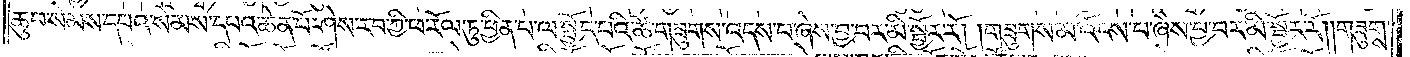ཆུབ་སེམས་དཔའ་སེམས་དཔའ་ཆེན་པོ་ཤེས་རབ་ཀྱི་ཕ་རོལ་ཏུ་ཕྱིན་པ་ལ་སྤྱོད་པའི་ཚེ་གཟུགས་འདས་པ་ཞེས་བྱ་བར་མི་སྦྱོར་རོ། །གཟུགས་མ་འོངས་པ་ཞེས་བྱ་བར་མི་སྦྱོར་རོ། །གཟུགས་
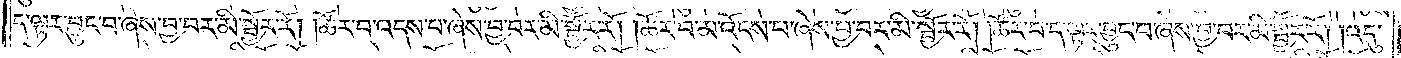ད་ལྟར་བྱུང་བ་ཞེས་བྱ་བར་མི་སྦྱོར་རོ། །ཚོར་བ་འདས་པ་ཞེས་བྱ་བར་མི་སྦྱོར་རོ། །ཚོར་བ་མ་འོངས་པ་ཞེས་བྱ་བར་མི་སྦྱོར་རོ། །ཚོར་བ་ད་ལྟར་བྱུང་བ་ཞེས་བྱ་བར་མི་སྦྱོར་རོ། །འདུ་
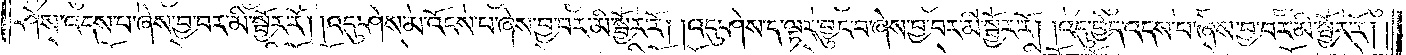ཤེས་འདས་པ་ཞེས་བྱ་བར་མི་སྦྱོར་རོ། །འདུ་ཤེས་མ་འོངས་པ་ཞེས་བྱ་བར་མི་སྦྱོར་རོ། །འདུ་ཤེས་ད་ལྟར་བྱུང་བ་ཞེས་བྱ་བར་མི་སྦྱོར་རོ། །འདུ་བྱེད་འདས་པ་ཞེས་བྱ་བར་མི་སྦྱོར་རོ། །
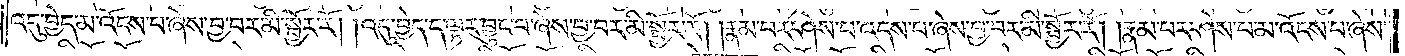འདུ་བྱེད་མ་འོངས་པ་ཞེས་བྱ་བར་མི་སྦྱོར་རོ། །འདུ་བྱེད་ད་ལྟར་བྱུང་བ་ཞེས་བྱ་བར་མི་སྦྱོར་རོ། །རྣམ་པར་ཤེས་པ་འདས་པ་ཞེས་བྱ་བར་མི་སྦྱོར་རོ། །རྣམ་པར་ཤེས་པ་མ་འོངས་པ་ཞེས་
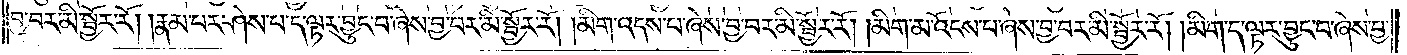བྱ་བར་མི་སྦྱོར་རོ། །རྣམ་པར་ཤེས་པ་ད་ལྟར་བྱུང་བ་ཞེས་བྱ་བར་མི་སྦྱོར་རོ། །མིག་འདས་པ་ཞེས་བྱ་བར་མི་སྦྱོར་རོ། །མིག་མ་འོངས་པ་ཞེས་བྱ་བར་མི་སྦྱོར་རོ། །མིག་ད་ལྟར་བྱུང་བ་ཞེས་བྱ་
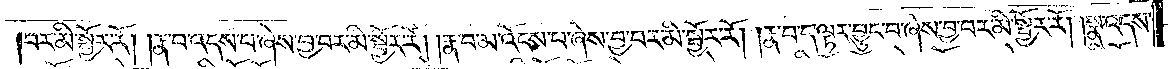བར་མི་སྦྱོར་རོ། །རྣ་བ་འདས་པ་ཞེས་བྱ་བར་མི་སྦྱོར་རོ། །རྣ་བ་མ་འོངས་པ་ཞེས་བྱ་བར་མི་སྦྱོར་རོ། །རྣ་བ་ད་ལྟར་བྱུང་བ་ཞེས་བྱ་བར་མི་སྦྱོར་རོ། །སྣ་འདས་
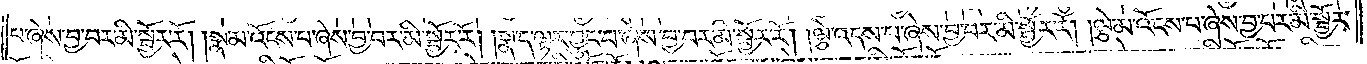པ་ཞེས་བྱ་བར་མི་སྦྱོར་རོ། །སྣ་མ་འོངས་པ་ཞེས་བྱ་བར་མི་སྦྱོར་རོ། །སྣ་ད་ལྟར་བྱུང་བ་ཞེས་བྱ་བར་མི་སྦྱོར་རོ། །ལྕེ་འདས་པ་ཞེས་བྱ་བར་མི་སྦྱོར་རོ། །ལྕེ་མ་འོངས་པ་ཞེས་བྱ་བར་མི་སྦྱོར་
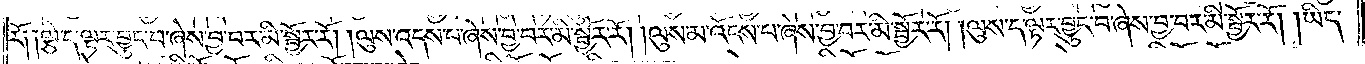རོ༑ ༑ལྕེ་ད་ལྟར་བྱུང་བ་ཞེས་བྱ་བར་མི་སྦྱོར་རོ། །ལུས་འདས་པ་ཞེས་བྱ་བར་མི་སྦྱོར་རོ། །ལུས་མ་འོངས་པ་ཞེས་བྱ་བར་མི་སྦྱོར་རོ། །ལུས་ད་ལྟར་བྱུང་བ་ཞེས་བྱ་བར་མི་སྦྱོར་རོ། །ཡིད་
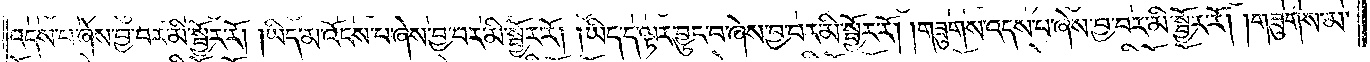འདས་པ་ཞེས་བྱ་བར་མི་སྦྱོར་རོ། །ཡིད་མ་འོངས་པ་ཞེས་བྱ་བར་མི་སྦྱོར་རོ། །ཡིད་ད་ལྟར་བྱུང་བ་ཞེས་བྱ་བར་མི་སྦྱོར་རོ། །གཟུགས་འདས་པ་ཞེས་བྱ་བར་མི་སྦྱོར་རོ། །གཟུགས་མ་
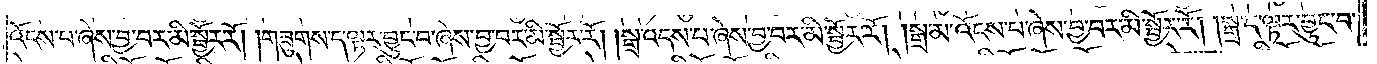འོངས་པ་ཞེས་བྱ་བར་མི་སྦྱོར་རོ། །གཟུགས་ད་ལྟར་བྱུང་བ་ཞེས་བྱ་བར་མི་སྦྱོར་རོ། །སྒྲ་འདས་པ་ཞེས་བྱ་བར་མི་སྦྱོར་རོ། །སྒྲ་མ་འོངས་པ་ཞེས་བྱ་བར་མི་སྦྱོར་རོ། །སྒྲ་ད་ལྟར་བྱུང་བ་
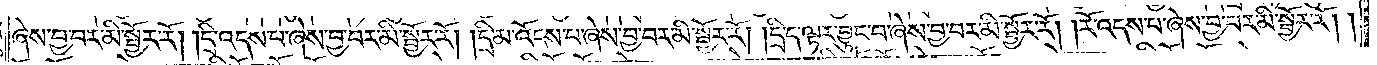ཞེས་བྱ་བར་མི་སྦྱོར་རོ། །དྲི་འདས་པ་ཞེས་བྱ་བར་མི་སྦྱོར་རོ། །དྲི་མ་འོངས་པ་ཞེས་བྱ་བར་མི་སྦྱོར་རོ། །དྲི་ད་ལྟར་བྱུང་བ་ཞེས་བྱ་བར་མི་སྦྱོར་རོ། །རོ་འདས་པ་ཞེས་བྱ་བར་མི་སྦྱོར་རོ༎
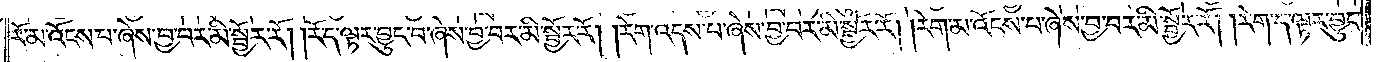རོ་མ་འོངས་པ་ཞེས་བྱ་བར་མི་སྦྱོར་རོ། །རོད་ལྟར་བྱུང་བ་ཞེས་བྱ་བར་མི་སྦྱོར་རོ། །རེག་འདས་པ་ཞེས་བྱ་བར་མི་སྦྱོར་རོ། །རེག་མ་འོངས་པ་ཞེས་བྱ་བར་མི་སྦྱོར་རོ། །རེག་ད་ལྟར་བྱུང་
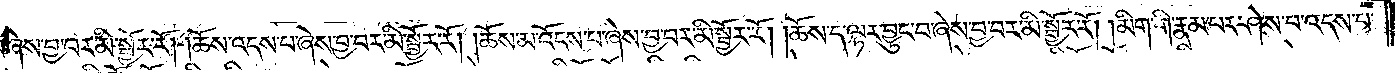བ་ཞེས་བྱ་བར་མི་སྦྱོར་རོ། །ཆོས་འདས་པ་ཞེས་བྱ་བར་མི་སྦྱོར་རོ། །ཆོས་མ་འོངས་པ་ཞེས་བྱ་བར་མི་སྦྱོར་རོ། །ཆོས་ད་ལྟར་བྱུང་བ་ཞེས་བྱ་བར་མི་སྦྱོར་རོ། །མིག་གི་རྣམ་པར་ཤེས་པ་འདས་པ་
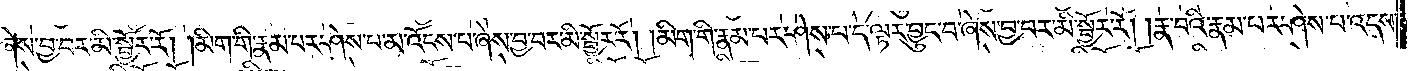ཞེས་བྱ་བར་མི་སྦྱོར་རོ། །མིག་གི་རྣམ་པར་ཤེས་པ་མ་འོངས་པ་ཞེས་བྱ་བར་མི་སྦྱོར་རོ། །མིག་གི་རྣམ་པར་ཤེས་པ་ད་ལྟར་བྱུང་བ་ཞེས་བྱ་བར་མི་སྦྱོར་རོ། །རྣ་བའི་རྣམ་པར་ཤེས་པ་འདས་
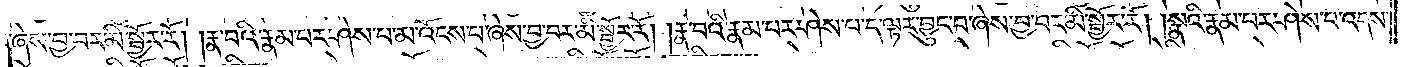ཞེས་བྱ་བར་མི་སྦྱོར་རོ། །རྣ་བའི་རྣམ་པར་ཤེས་པ་མ་འོངས་པ་ཞེས་བྱ་བར་མི་སྦྱོར་རོ། །རྣ་བའི་རྣམ་པར་ཤེས་པ་ད་ལྟར་བྱུང་བ་ཞེས་བྱ་བར་མི་སྦྱོར་རོ། །སྣའི་རྣམ་པར་ཤེས་པ་འདས་
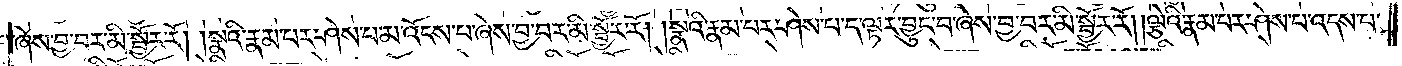ཞེས་བྱ་བར་མི་སྦྱོར་རོ། །སྣའི་རྣམ་པར་ཤེས་པ་མ་འོངས་པ་ཞེས་བྱ་བར་མི་སྦྱོར་རོ། །སྣའི་རྣམ་པར་ཤེས་པ་ད་ལྟར་བྱུང་བ་ཞེས་བྱ་བར་མི་སྦྱོར་རོ། །ལྕེའི་རྣམ་པར་ཤེས་པ་འདས་པ་
